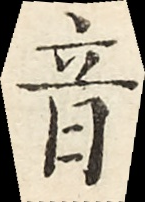音
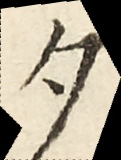夕
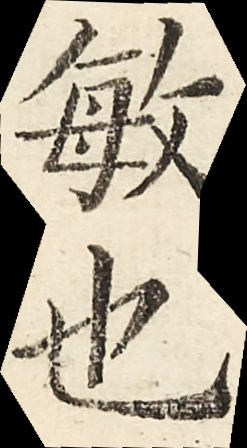敏也
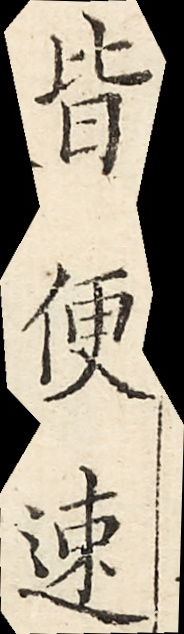皆便速
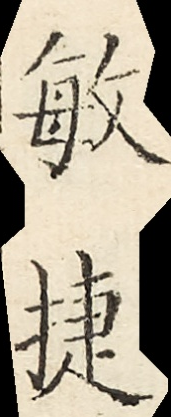敏捷
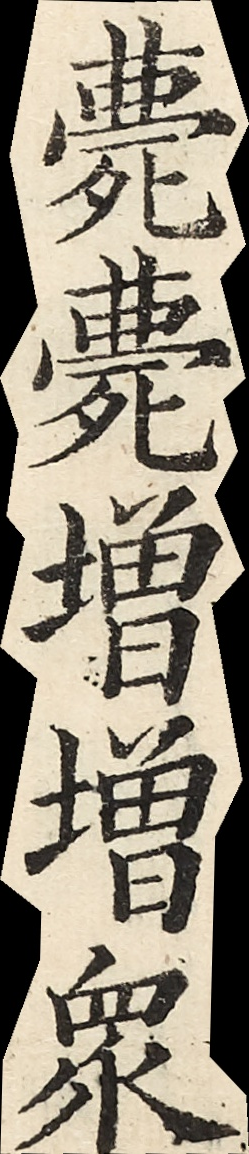薨薨增增眾
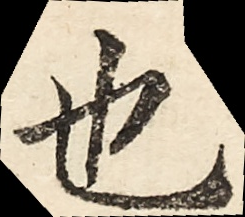也
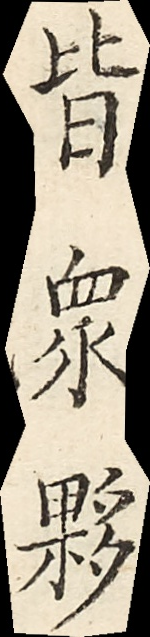皆眾夥
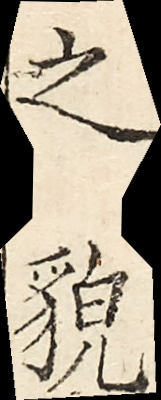之貌
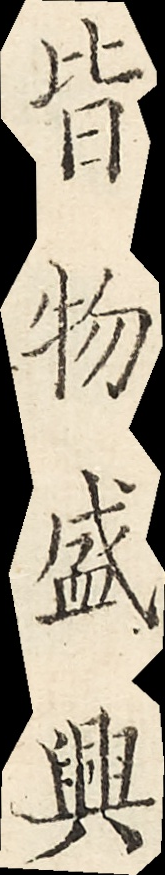皆物盛興
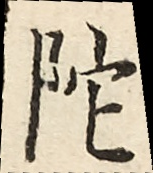佗
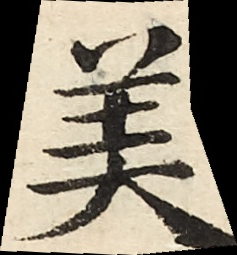美
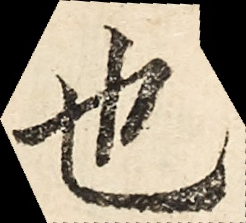也
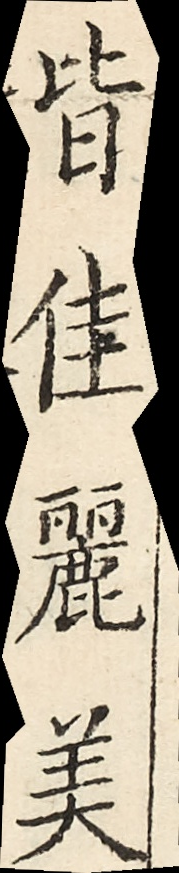皆佳麗美
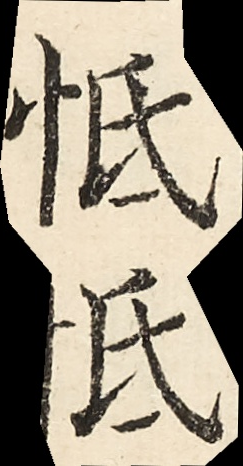忯忯
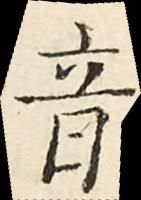音
